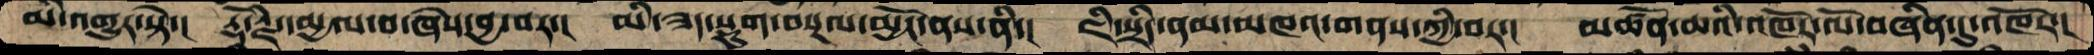མི་འགྱུར་སྟེ་།  རྡོ་རྗེ་དམྱལ་བ་ཞེས་བྱ་བར་།  མི་ཟད་སྡུག་བསྔལ་མྱོང་ནས་ནི་།  ཇི་སྲིད་ནམ་མཁའ་གནས་ཀྱི་བར་།  མཚོན་ཆའི་འཁོར་ལོ་བཞིན་དུ་འཁོར་།
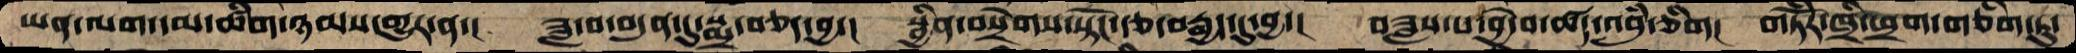ཡན་ལག་དམ་ཚིག་ཉམས་གྱུར་ན་།  ཟླ་བ་བདུན་དུ་སྨྲ་བཅད་བྱ་།  སྦྱིན་བསྲེགས་སྟོང་རྩ་བརྒྱད་དུ་བྱ་།  བཟླས་པ་བྱེ་བ་ཚད་འབུྃ་ཅིག།  གཏོཾར་ཁྲི་ཕྲག་གཅིག་ཏུ་
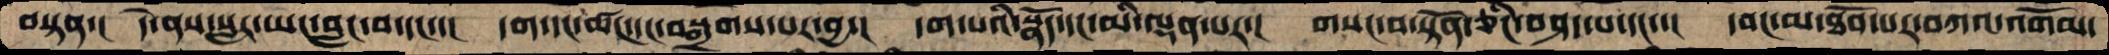བསྟན་།  དེ་ནས་སླར་ཡང་བླང་བ་དང་་།  དག་དང་ཚད་དང་བསྒྲགས་པར་བྱ་།  དག་པའི་སྣོད་དང་མི་ལྡན་པར་།  གསང་བ་སྟོན་ཅིང་བཤད་པ་དང་་།  དབང་མ་ཐོབ་པར་བཀའ་འགོམ་
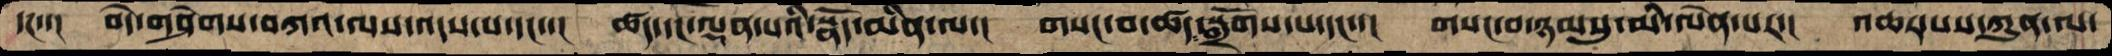དང་།  བདེ་གཤེགས་བཀའ་ལས་འདས་པ་དང་་།  ཚད་དང་ལྡན་པའི་སྣོད་མིན་ལ་།  གསང་བ་ཚད་སྒྲོགས་པ་དང་་།  གསང་བ་ཉམསུ་མི་ལེན་པར་།  འཆར་པས་ཀུན་ལ་
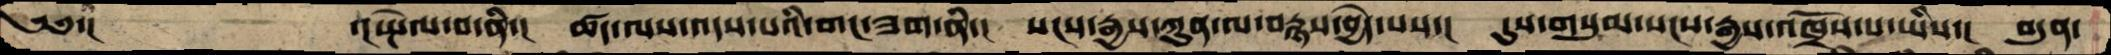༄༅་།            ་།སྤེལ་བ་ནི་།  ཚད་ལས་འདས་པའི་གང་ཟག་ནི་།  སངས་རྒྱས་ཀུན་ལ་བརྙས་བྱེད་པས་།  དུས་གསུམ་སངས་རྒྱས་འཁྲོས་པ་ཡིས་།  བདུན་
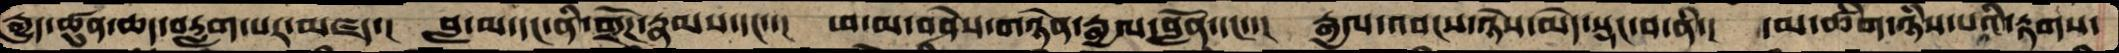རྒྱུད་ཚུན་ཆད་བརླག་པར་མཛད་།  བླ་མ་དང་ནི་གྲོཌ་རྣམས་དང་་།  ཕ་མ་བཤེས་གཉེན་རྒྱལ་བློན་དང་་།  རྒྱལ་འབངས་ཉེས་མེད་སྡང་བ་ནི་།  དམ་ཚིག་ཉིས་པའི་རྟགས་
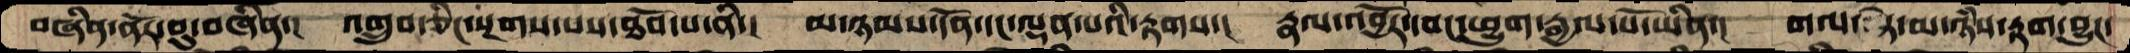བཞིན་ནོར་བུ་བཞིན་།  འགྲུབ་ཅིང་སྔགས་པས་ཐོབ་པ་ནི་།  མ་ཉམས་དོན་དང་ལྡན་པའི་རྟགས་།  རྣལ་འབྱོར་དབང་ཕྱུག་རྒྱལ་པོ་ཡིན་།  གལ་ཏེ་མ་ཉཾས་རྟག་བྱུང་
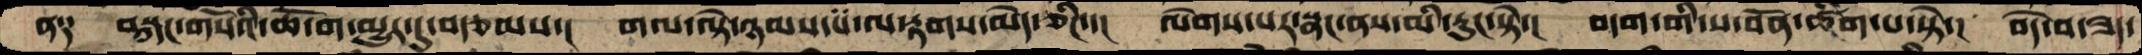ན༑   བསྐང་གསོའི་ཆོ་ག་མྱུར་དུ་བརྩམས་།  གལ་ལྟེ་ཉམས་པ་ལ་རྟགས་མེད་ཅིང་་།  ལེགས་པར་སྣང་ནས་མི་རུང་སྟེ་།  བདག་གི་ས་བོན་ཚིག་པ་སྟེ་།  བདེ་བ་ཟད་
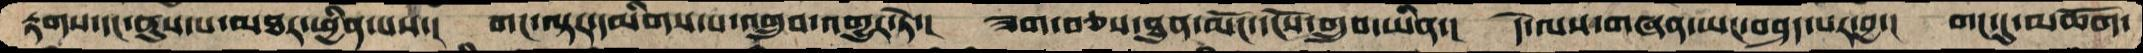རྟགས་དང་ནུས་པ་མཐར་ཕྱིན་པས་།   གང་ལྟར་དམིགས་པ་འགྲུབ་འགྱུར་ཏེ་།  ཟག་བཅས་ཐུན་མོང་དངོས་གྲུབ་ཡིན་།   དེ་ལས་གཞན་ཡང་བཤད་པར་བྱ་།  གང་དུ་མཆོག་
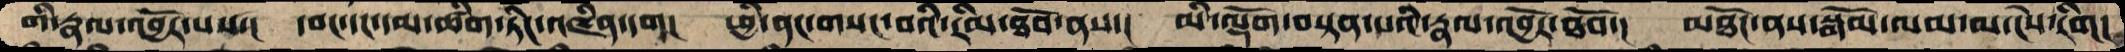གི་རྣལ་འབྱོར་པས་། དབང་དང་དམ་ཚིག་ཏིང་འཛིན་དག།  ཕྱི་ནང་གསང་བའི་རིམ་ཐོབ་ནས་།  མི་ལྡོག་བསྟན་པའི་རྣལ་འབྱོར་ཐོབ་།  མཐོང་ནས་སྒོམ་ལམ་མ་ངེས་རིག།
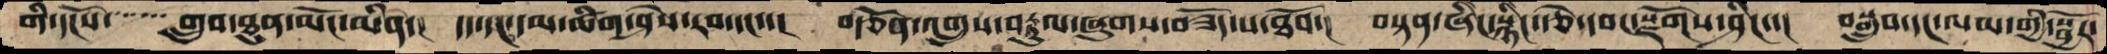གི་དངོས་་་་་་་་གྲུབ་ཐུན་མོང་མིན་།  དད་དང་དམ་ཚིག་ཤེས་རབ་དང་་།  བརྩོན་འགྲུས་བརྟུལ་ཞུགས་བཟོད་པ་ཐོབ་།  བསྟན་ཞིང་སྙིང་རྩེ་དབང་སྫོགས་ཤིང་་།  བསྒྲུབ་དང་ལམ་གྱི་སྦྱོར་
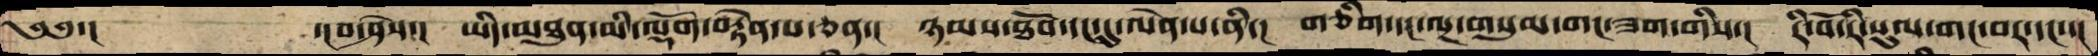༄༅་།       ་།པ་ཤེས་།  ཡིད་མཐུན་མི་ལྡོག་བརྟེན་པ་ཅན་།  ཉམས་ཐོབ་དང་དུ་ལེན་པ་ནི་།  གཅིག་དང་ལྔ་གསུམ་གང་ཟག་གིས་།  རི་བོ་རི་སུལ་གང་བར་དང་་།
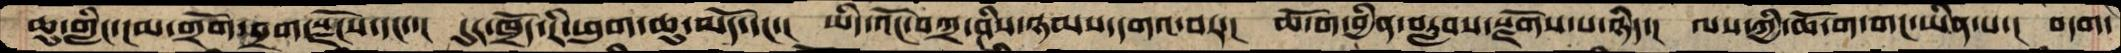ཆུ་གླིང་ངམ་གྲོག་བྲག་སྫོངས་དང་་།  དུར་ཁྲོད་རི་ཕུག་ཆུ་མདོ་དང་།  ཡིད་འོང་བཀྲ་ཤིས་ཉམས་དགའ་བར་།  ཆོ་ག་བྱིན་བརླབས་སྫོགས་པ་ཉིད་། ལས་ཀྱི་ཆོ་ག་གང་ཡིན་པ་།  བདག་
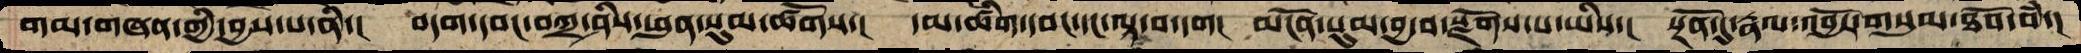གམ་གཞན་གྱི་བྱས་པ་ནི་།  བདག་དབང་བཀྲ་ཤིས་ཕུན་སུམ་ཚོགས་།  དམ་ཚིག་དབང་དང་ལྟ་བ་དག།  མངོན་སུམ་བྱ་བ་སྫོགས་པ་ཡིས་།  སྔོན་དུ་རྣལ་འབྱོར་གསུམ་ཐོབ་བཾ་།
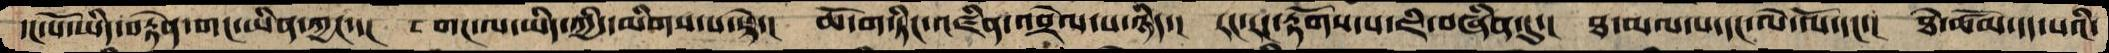དང་པོ་ཡིད་བརྟེན་གང་ཡིན་ཀྱང་་།  གང་ལ་ཡིད་ཀྱི་དམིགས་པ་སྟེ་།  ཆོ་ག་ཏིང་འཛིན་འབྲེལ་པ་ཉིད་།  རང་རང་རྟོགས་པ་ཇི་བཞིན་དུ་།  ཐ་མལ་པ་དང་ལེ་ལོ་དང་།  ཐེ་ཚོམ་དད་པའི་
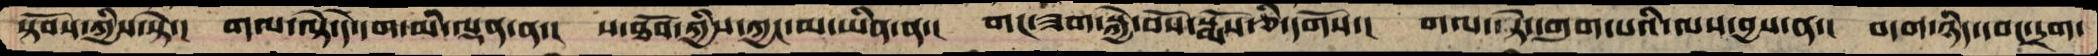སྟོབས་ཀྱིས་སྟེ་།  གལ་ལྟེ་དེ་དག་མི་ལྡན་ན་།   ས་ཐོབ་ཀྱིས་ཀྱང་མ་ཡིན་ན་།  གང་ཟག་སྐྱེ་བོས་སྨོས་ཅི་དགོས་།  གལ་ཏེ་དགུག་པའི་ལས་བྱས་ན་།  བདག་ཉིད་དབང་དྲག་
